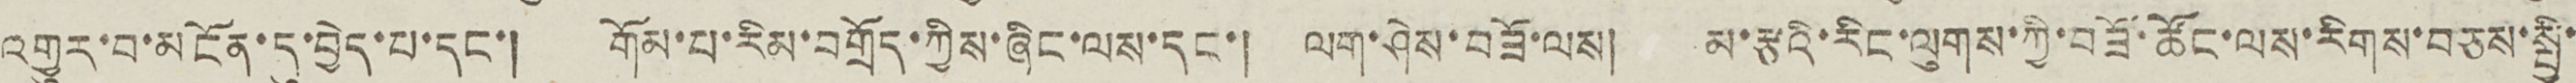འགྱུར་བ་མངོན་དུ་བྱེད་པ་དང་། གོམ་པ་རིམ་བགྲོད་ཀྱིས་ཞིང་ལས་དང་། ལག་ཤེས་བཟོ་ལས། མ་རྩའི་རིང་ལུགས་ཀྱི་བཟོ་ཚོང་ལས་རིགས་བཅས་སྤྱི་
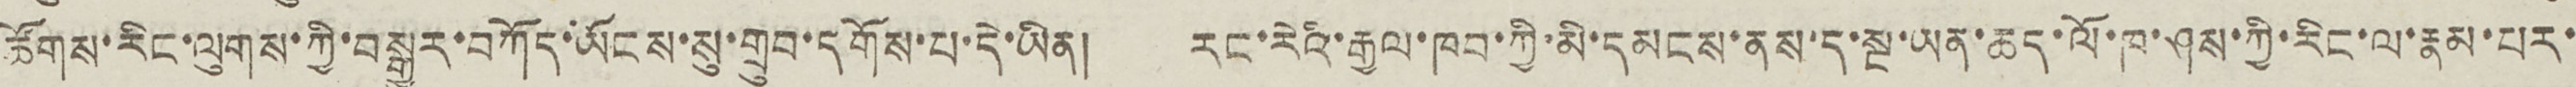ཚོགས་རིང་ལུགས་ཀྱི་བསྒྱུར་བཀོད་ཡོངས་སུ་གྲུབ་དགོས་པ་དེ་ཡིན། རང་རེའི་རྒྱལ་ཁབ་ཀྱི་མི་དམངས་ནས་ད་སྔ་ཡན་ཆད་ལོ་ཁ་ཤས་ཀྱི་རིང་ལ་རྣམ་པར་
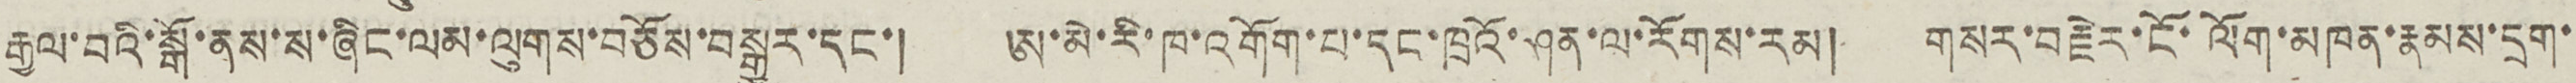རྒྱལ་བའི་སྒོ་ནས་ས་ཞིང་ལམ་ལུགས་བཅོས་བསྒྱུར་དང་། ཨ་མེ་རི་ཁ་འགོག་པ་དང་ཁྲའོ་ཤན་ལ་རོགས་རམ། གསར་བརྗེར་ངོ་ལོག་མཁན་རྣམས་དྲག་
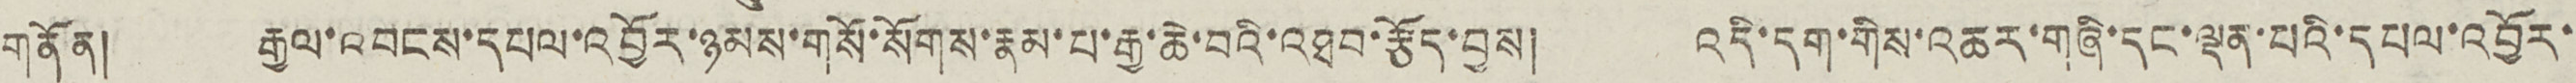གནོན། རྒྱལ་འབངས་དཔལ་འབྱོར་ཉམས་གསོ་སོགས་རྣམ་པ་རྒྱ་ཆེ་བའི་འཐབ་རྩོད་བྱས། འདི་དག་གིས་འཆར་གཞི་དང་ལྡན་པའི་དཔལ་འབྱོར་
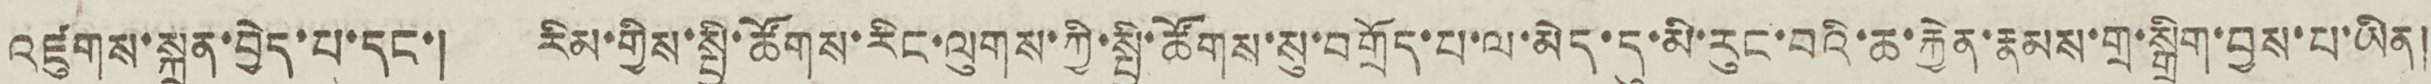འཛུགས་སྐྲུན་བྱེད་པ་དང་། རིམ་གྱིས་སྤྱི་ཚོགས་རིང་ལུགས་ཀྱི་སྤྱི་ཚོགས་སུ་བགྲོད་པ་ལ་མེད་དུ་མི་རུང་བའི་ཆ་རྐྱེན་རྣམས་གྲ་སྒྲིག་བྱས་པ་ཡིན།
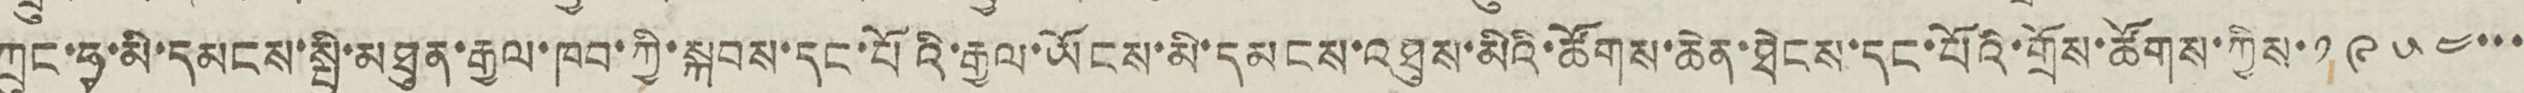ཀྲུང་ཧྭ་མི་དམངས་སྤྱི་མཐུན་རྒྱལ་ཁབ་ཀྱི་སྐབས་དང་པོའི་རྒྱལ་ཡོངས་མི་དམངས་འཐུས་མིའི་ཚོགས་ཆེན་ཐེངས་དང་པོའི་གྲོས་ཚོགས་ཀྱིས་༡ ༩ ༥ ༤་་་་
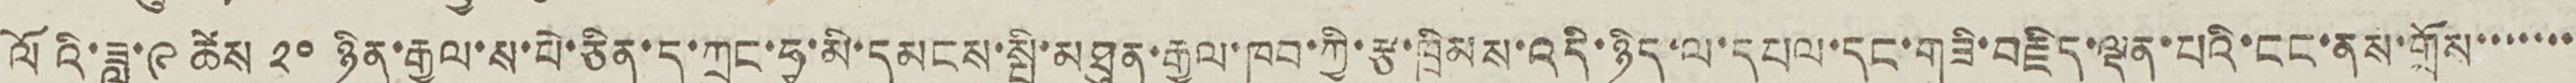ལོའི་ཟླ་༩ ཚེས ༢༠ ཉིན་རྒྱལ་ས་པེ་ཅིན་དུ་ཀྲུང་ཧྭ་མི་དམངས་སྤྱི་མཐུན་རྒྱལ་ཁབ་ཀྱི་རྩ་ཁེིམས་འདི་ཉིད་ལ་དཔལ་དང་གཟི་བརྗིད་ལྡན་པའི་ངང་ནས་གྲོས་་་་་་་
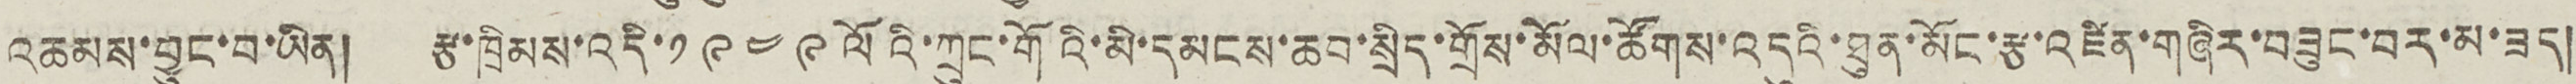འཆམས་བྱུང་བ་ཡིན། རྩ་ཁྲིམས་འདི་༡ ༩ ༤ ༩ ལོའི་ཀྲུང་གོའི་མི་དམངས་ཆབ་སྲིད་གྲོས་མོལ་ཚོགས་འདུའི་ཐུན་མོང་རྩ་འཛིན་གཞིར་བཟུང་བར་མ་ཟད།
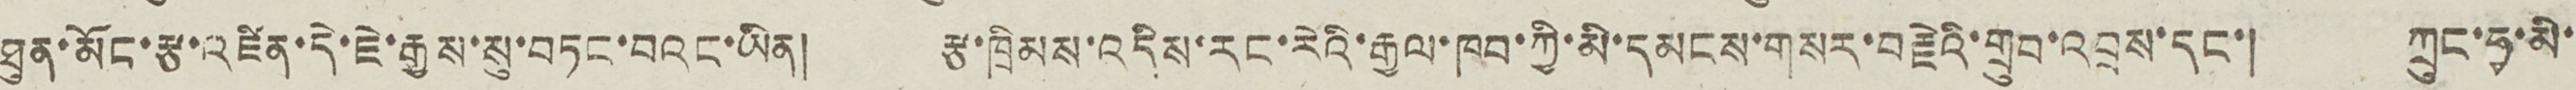ཐུན་མོང་རྩ་འཛིན་དེ་ཇེ་རྒྱས་སུ་བཏང་བའང་ཡིན། རྩ་ཁྲིམས་འདིས་རང་རེའི་རྒྱལ་ཁབ་ཀྱི་མི་དམངས་གསར་བརྗེའི་གྲུབ་འབྲས་དང་། ཀྲུང་ཧྭ་མི་
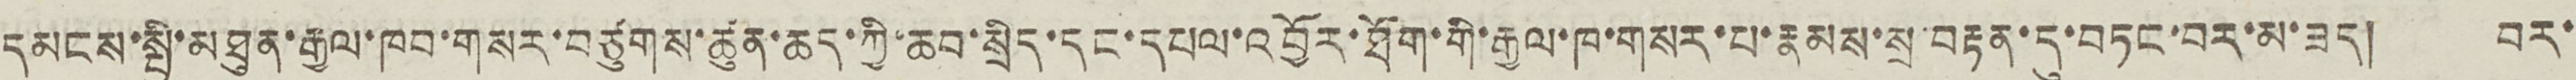དམངས་སྤྱི་མཐུན་རྒྱལ་ཁབ་གསར་བཙུགས་ཚུན་ཆད་ཀྱི་ཆབ་སྲིད་དང་དཔལ་འབྱོར་ཐོག་གི་རྒྱལ་ཁ་གསར་པ་རྣམས་སྲ་བརྟན་དུ་བཏང་བར་མ་ཟད། བར་
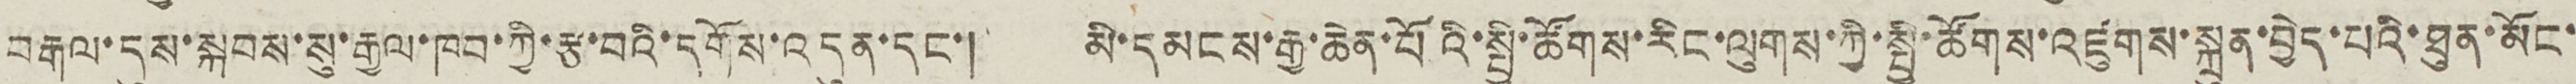བརྒལ་དུས་སྐབས་སུ་རྒྱལ་ཁབ་ཀྱི་རྩ་བའི་དགོས་འདུན་དང་། མི་དམངས་རྒྱ་ཆེན་པོའི་སྤྱི་ཚོགས་རིང་ལུགས་ཀྱི་སྤྱི་ཚོགས་འཛུགས་སྐྲུན་བྱེད་པའི་ཐུན་མོང་
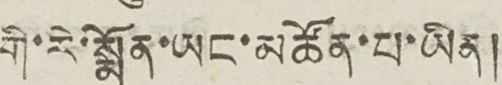གི་རེ་སྨོན་ཡང་མཚོན་པ་ཡིན།
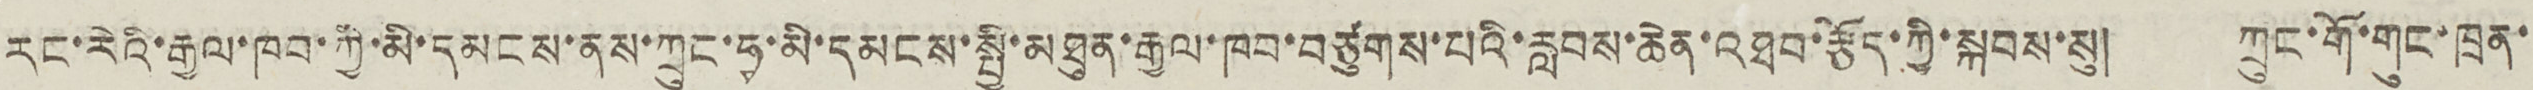རང་རེའི་རྒྱལ་ཁབ་ཀྱི་མི་དམངས་ནས་ཀྲུང་ཧྭ་མི་དམངས་སྤྱི་མཐུན་རྒྱལ་ཁབ་བཙུགས་པའི་རླབས་ཆེན་འཐབ་རྩོད་ཀྱི་སྐབས་སུ། ཀྲུང་གོ་གུང་ཁྲན་
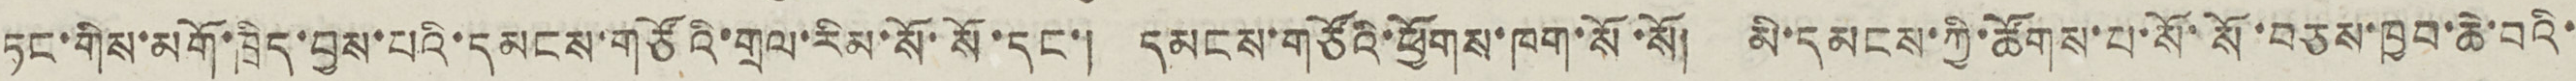ཏང་གིས་མགོ་ཁྲིད་བྱས་པའི་དམངས་གཙོའི་གྲལ་རིམ་སོ་སོ་དང་། དམངས་གཙོའི་ཕྱོགས་ཁག་སོ་སོ། མི་དམངས་ཀྱི་ཚོགས་པ་སོ་སོ་བཅས་ཁྱབ་ཆེ་བའི་
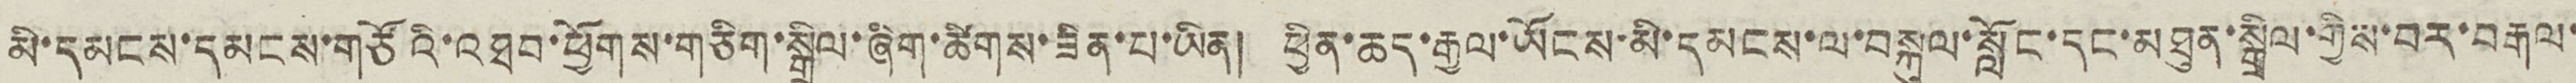མི་དམངས་དམངས་གཙོའི་འཐབ་ཕྱོགས་གཅིག་སྒྲིལ་ཞིག་ཚིགས་ཟིན་པ་ཡིན། ཕྱིན་ཆད་རྒྱལ་ཡོངས་མི་དམངས་ལ་བསྐུལ་སློང་དང་མཐུན་སྒྲིལ་གྱིས་བར་བརྒལ་
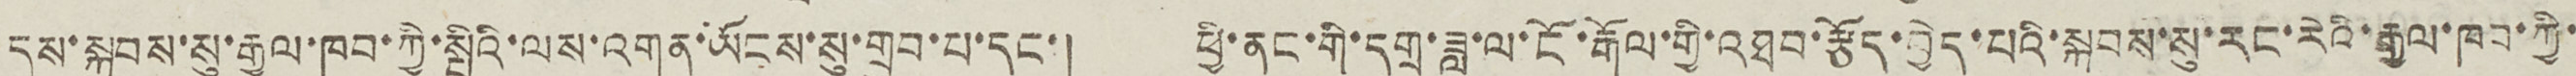དུས་སྐབས་སུ་རྒྱལ་ཁབ་ཀྱི་སྤྱིའི་ལས་འགན་ཡོངས་སུ་གྲུབ་པ་དང་། ཕྱི་ནང་གི་དགྲ་ཟླ་ལ་ངོ་རྒོལ་གྱི་འཐབ་རྩོད་བྱེད་པའི་སྐབས་སུ་རང་རེའི་རྒྱལ་ཁབ་ཀྱི་
